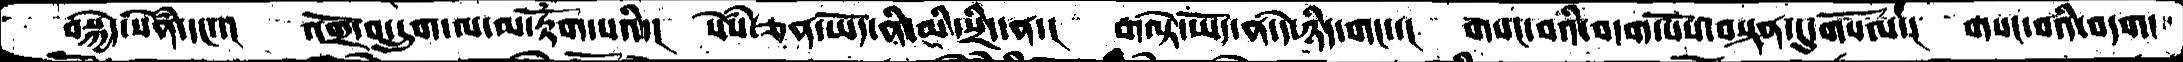བསྐྱེད་སེནཾ་དང་་།  འགྲོ་བ་དྲུག་ལ་མ་རྟོག་པའི་། སེསཾ་ཅན་ཡོད་ནི་མི་སྲིད་ན་།  གལྟེ་ཡོད་ན་དེ་ཉིད་གང་་།  གསང་བའི་བདག་པོས་བསྟན་དུ་གསོལ་།  གསང་བའི་བདག་
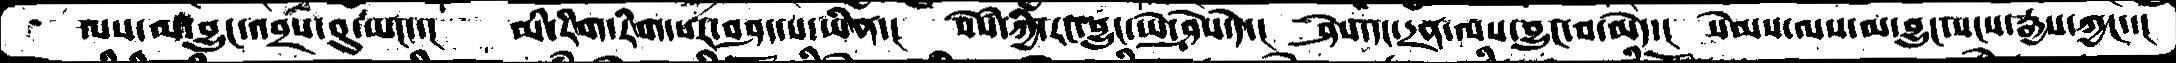ལས་མ་བྱུང་འབྲས་བུ་ཡང་་།  མི་རིག་རིག་པར་བཤད་པ་་ཡིན་།  སེསཾ་ཀྱི་རང་བྱུང་ཡེ་ཤེས་དེ་།  ཤེས་དང་དྲན་ལས་བྱུང་བ་མེད་།  སེམས་ལས་མ་བྱུང་སངས་རྒྱས་ཀྱང་་།
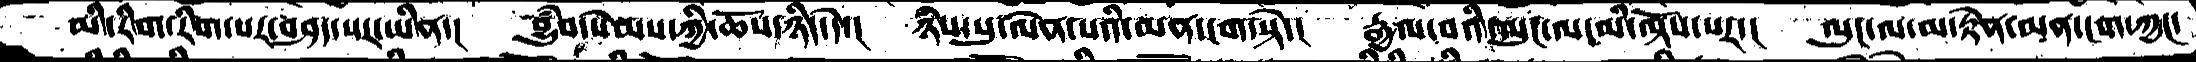མི་རིག་རིག་པར་བཤད་པར་ཡིན་།  བྱུཾབ་སེམས་ཀྱི་ཆོས་ཉིད་དེ་།  ཉིས་སུ་ལེན་པའི་མན་ངག་སྟེ་།  རྒྱལ་བའི་ལུང་ལ་མི་ལྟོས་པར་།  ལུང་ལ་མ་རྟེན་མན་ངག་ཀྱང་
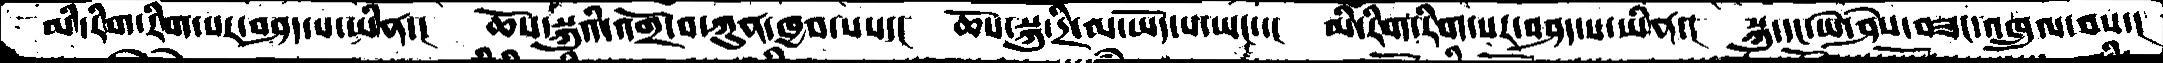མི་རིག་རིག་པར་བཤད་པ་ཡིན་།  ཆོས་སྐུའི་འགྲོ་བ་ཀུན་ཁྱབ་པས་།  ཆོས་སྐུ་དྲི་ལ་ཡོད་པ་ཡང་་།  མི་རིག་རིག་པར་བཤད་པ་ཡིན་།  སྐུ་དང་ཡེ་ཤེས་བཟང་འཁྲུལ་བས་།
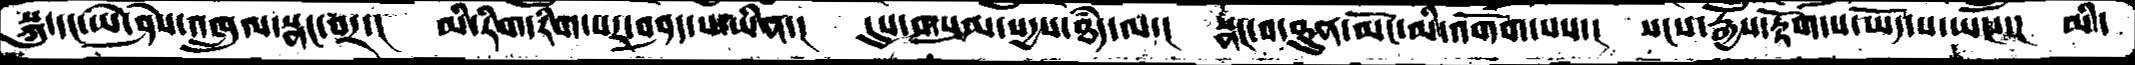སྐུ་དང་ཡེ་ཤེས་འཁྲུལ་སྣང་བར་།  མི་རིག་རིག་པར་བཤད་པ་ཡིན་།  དུས་གསུམ་སདྱས་ཐདཾ་ལ་།  སྣང་བ་ཐུན་མོང་མི་འགོག་པས་།  སངས་རྒྱས་རྟོག་པ་ཡོད་པ་ཡང་་། མི་
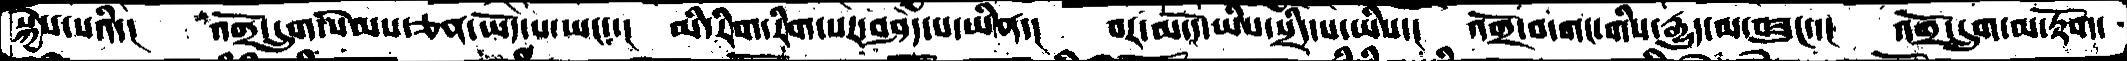སྐྱེས་པའི་།   འགྲོ་དྲུག་སེམས་ཅན་ཡོད་པ་ཡང་་།  མི་རིག་རིག་པར་བཤད་པ་ཡིན་།  བར་མ་དོ་ཡིས་སྲིད་པ་ཡིས་།  འགྲོ་བ་གང་གིས་རྒྱུད་མ་བཟུང་་།  འགྲོ་དྲུག་མ་རྟོག་
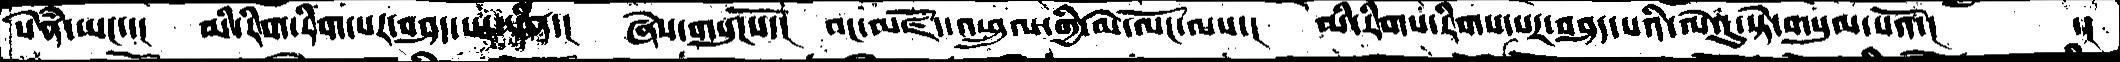སེཾན་ཡང་་།   མི་རིག་རིག་པར་བཤད་པས་ན་།  ཞེས་གསུངསོ་།  བང་མཛོད་འཕྲུལ་གྱི་མེ་ལོང་ལས་།  མི་རིགས་རིགས་པར་བཤད་པའི་ལེའུ་སྟེ་གསུམ་པའོ་།    ་།
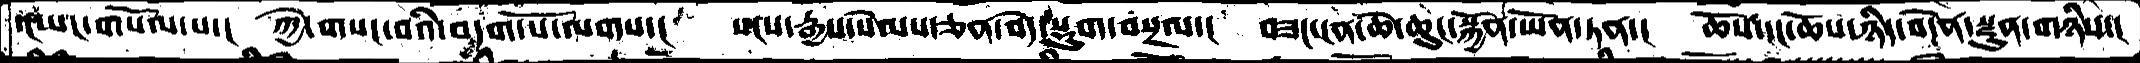་།ཡང་གསོལ་པ་།  ཀྱེ་གསང་བའི་བདག་པོ་ལགས་།  སངས་རྒྱས་སེམས་ཅན་བདེ་སྡུག་བསྔལ་།  བཟང་ངན་ཆེ་ཆུང་སྐྱོན་ཡོན་ཏན་།  ཆོས་དང་ཆོས་ཉིད་བདེན་སྫུན་གཉིས་
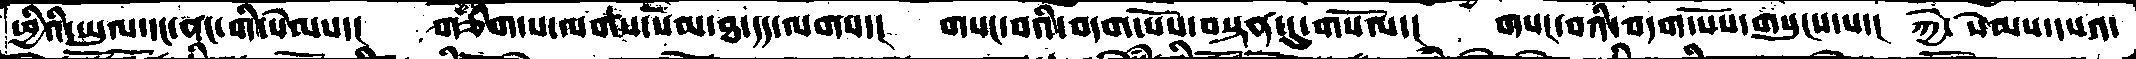ཕྱིའི་ཡུལ་དང་ནང་གི་སེམས་།  གཅིག་པ་ལགས་སམ་ཐ་དད་ལགས་།  གསང་བའི་བདག་པོས་བསྟན་དུ་གསོལ་།  གསང་བའི་བདག་པོས་གསུངས་པ་།  ཀྱེ་ སེམས་དཔའ་
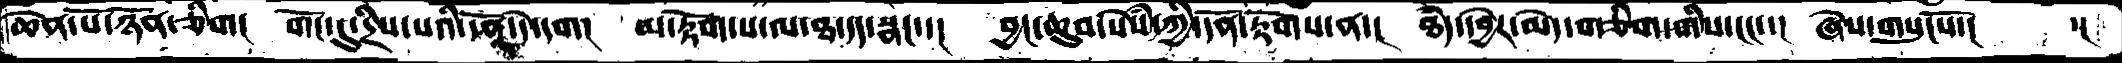ཆེན་པོ་ཉོན་ཅིག།  གོང་དུ་དྲིས་པའི་དོན་དེ་དག།  མ་རྟོག་པ་ལ་ཐ་དད་སྣང་་།  བྱང་ཆུབ་སེཾས་ཀྱི་དོན་རྟོགས་ན་།  ཐཾད་དབྱེར་མེད་གཅིག་གིས་ངང་།  ཞེས་གསུངསོ་།    ་།
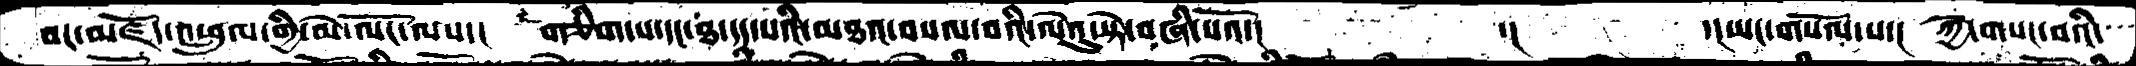བང་མཛོད་འཕྲུལ་གྱི་མེ་ལོང་ལས་།  གཅིག་པ་དང་ཐ་དད་པའི་མཐའ་བསལ་བའི་ལེའུ་སྟེ་བཞི་པའོ་།     ་།      ་།ཡང་གསོལ་པ་།  ཀྱེ་གསང་བའི་
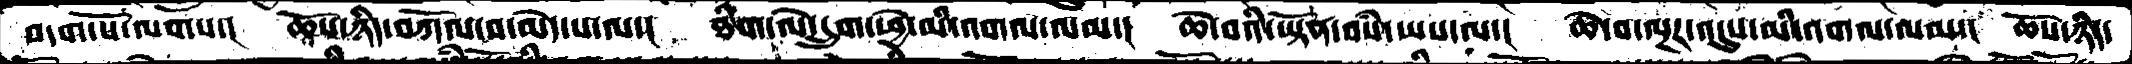བདག་པོ་ལགས་།   ཆོས་ཉིད་བཀོལ་བ་མེད་པ་ལ་།  ཐིག་ལེ་དྲུག་ཕྱེ་མི་འགལ་ལམ་།   ཆེ་བའི་ཡྟོན་བསཾ་ཡས་ལ་།  ཆེ་བ་ལྔར་འདུས་མི་འགལ་ལམ་།   ཆོས་ཉིད་
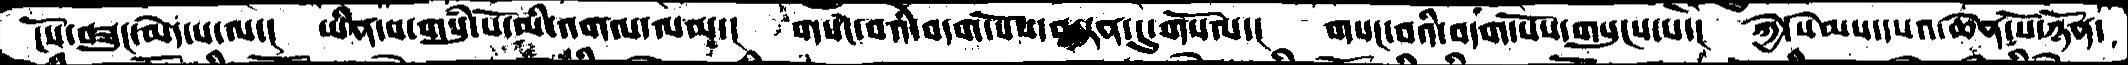ངོས་བཟུང་མེད་པ་ལ་།  ཡིན་པ་གསུཾ་པོ་མི་འགལ་ལམ་།  གསང་བའི་བདག་པོས་བསྟན་དུ་གསོལ་།  གསང་བའི་བདག་པོས་གསུངས་པ་།  ཀྱེ་སེམས་དཔའ་ཆེན་པོ་ཉོན་
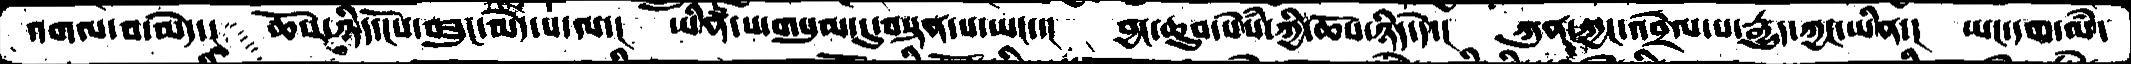འགལ་བ་མེད་།  ཆོས་ཉིད་དངོས་བཟུང་མེད་པ་ལ་།  ཡིན་པ་གསུམ་དུ་བསྟན་པ་ཡང་་།  བྱང་ཆུབ་སེཾས་ཀྱི་ཆོས་ཉིད་དེ་།  ཀུན་ཀྱང་འབྲེལ་པ་རྒྱུད་ཀྱང་ཡིན་།  ཡང་དག་ལཾ་
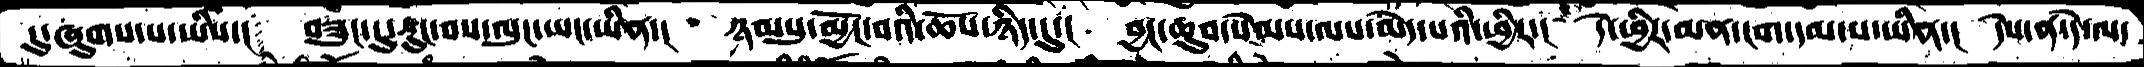དུ་ཞུགས་པ་ཡིས་།  བཟུང་དུ་རུང་བས་ལུང་ཡང་ཡིན་།  ཉམསུ་མྱོང་བའི་ཆོས་ཉིད་དུ་།  བྱང་ཆུབ་སེམས་ལས་མེད་པའི་ཕྱིར་།  དེ་ཕྱིར་མན་ངག་དམ་པ་ཡིན་།  དེས་ན་དེ་ལ་
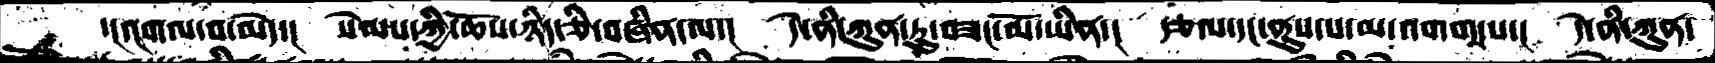་།འགལ་བ་མེད་།  སེམས་ཀྱི་ཆོས་ཉིད་ཅི་བཞིན་ལ་།  དེ་ནི་ཀུན་ཏུ་བཟང་མོ་ཡིན་།  རྩལ་དང་ནུས་པ་མ་འགག་པ་།  དེ་ནི་ཀུན་
